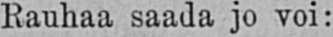Rauhaa saada jo voi:
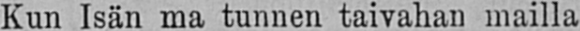Kun Isän ma tunnen taivahan mailla
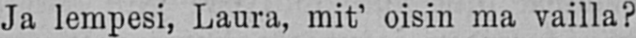Ja lempesi, Laura, mit' oisin ma vailla?
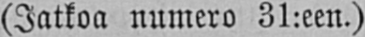(Jatkoa numero 31:een.)
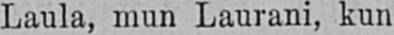Laula, mun Laurani, kun
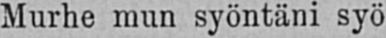Murhe mun syöntäni syö
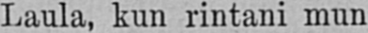Laula, kun rintani mun
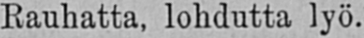Rauhatta, lohdutta lyö.
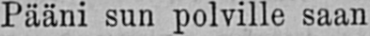Pääni sun polville saan
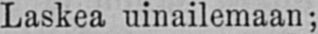Laskea uinailemaan;
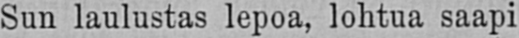Sun laulustas lepoa, lohtua saapi
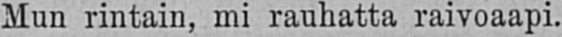Mun rintain, mi rauhatta raivoaapi.
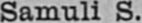Samuli S.
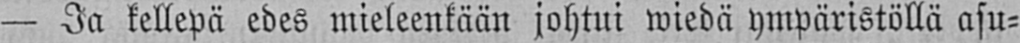— Ja kellepä edes mieleenkään johtui wiedä ympäristöllä asu-
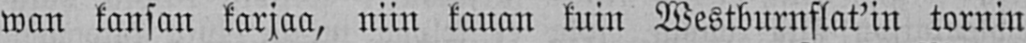wan kansan karjaa, niin kauan kuin Westburnflat'in tornin
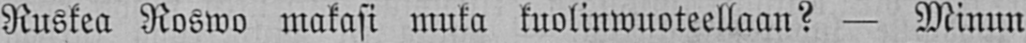Ruskea Roswo makasi muka kuolinwuoteellaan? — Minun
